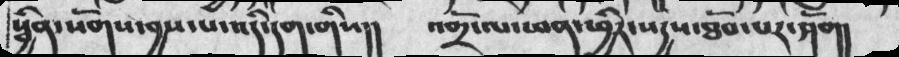སྦྱིན་སོགས་བྱས་པ་འདི་དག་གིས།།   འགྲོ་ལ་ཕན་ཕྱིར་སདྱས་ཐོབ་པར་ཤོག།
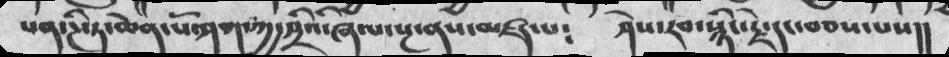པན་ཌི་ཏ་ཆེན་པོ་ཤག་ཀྱ་ཤྲིའི་ཞལ་སྔ་ནས་མཛད་པ༴  ཤེས་རབ་སྙིང་རྗེ་དང་བཅས་པས།།
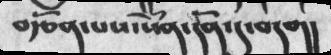བརྩོན་པས་སེཾན་དོན་དུ་བདག།
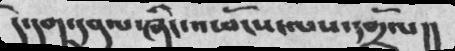དེ་དག་དབུལ་ཞིང་འཕོངས་ལས་དགྲོལ།།
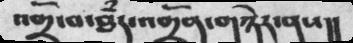འགྲོ་བ་ཐཾད་འགྲོན་གཉེར་ནས།།
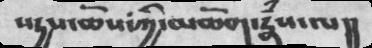སདྱས་ཆོས་ཀྱི་མཆོག་རྣཾས་ལ།།
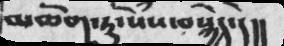མཆོག་ཏུ་སེཾས་བསྐྱེད་དེ།།
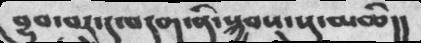བྱུབ་བར་དུ་བདག་ནི་སྐྱབས་སུ་མཆི།།
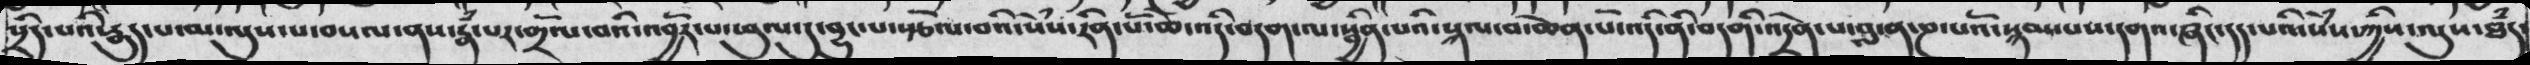སྲིད་པའི་རྒུད་པ་མ་ལུས་པ་བསལ་ནས་རྣཾ་པར་གྲོལ་བའི་འབྱོར་པ་ཕུལ་དུ་བྱུང་པ་སྩོལ་བའི་དེཾས་རིན་པོ་ཆེ་འདི་བདག་ལ་སྦྱིན་པའི་སྐལ་བ་ཆེན་པོ་འདི་ནི་བདགི་འདྲེན་པ་བླ་ན་ཎ་པའོ་སྙམས་པས་དགའ་ཞིང་དད་པའི་སེཾས་ཀྱིས་ལུས་ཐཾད་
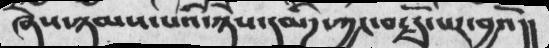ཞེས་ཉམས་པའི་ཉེས་དམིཌ་ཀྱང་བརྗོད་པར་བྱའོ།།
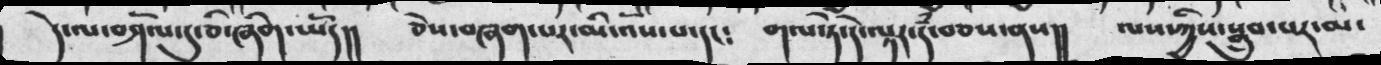དེ་ལ་བཤོལ་དུ་ཅི་ཞིག་ཡོད།།  ཅེས་བཞག་པར་མི་འོས་པ་དང༴  གལ་ཏེ་དེ་ལྟར་རཾ་བཅས་ནས།། ལས་ཀྱིས་སྒྲུབ་པར་མ་
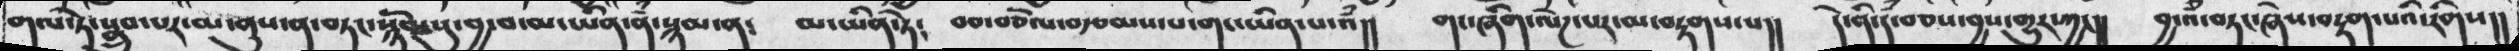གལ་ཏེ་སྒྲུབ་པར་མ་ནུས་ན་བཏང་སྙོམསུ་བྱ་བ་མ་ཡིན་ནོ་སྙམ་ན༴  མི་ཡིན་ཏེ༴  བབ་བཅོལ་བརྩམས་པ་གང་ཡིན་པ་འཾ།།  གང་ཞིག་ལེཌ་པར་མབརྟགས་པ།།  དེ་ནི་དཾ་བཅས་བྱས་གྱུར་ཀྱང།།  བྱ་འཾ་བཏང་ཞེས་བརྟག་པའི་རིགས།།
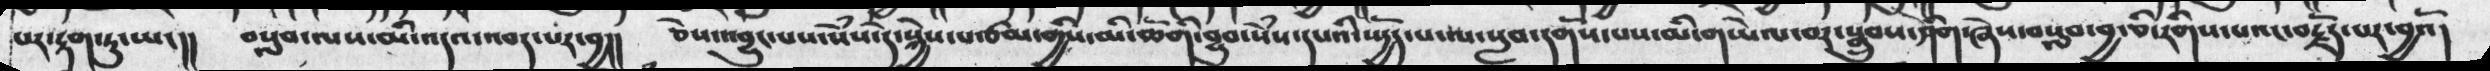པར་རྟག་ཏུ་ཡང།།  བསླབ་ལས་མི་འདའ་འབད་པར་བྱ།།  ཅེས་འབྱུང་པས་སེཾས་དེ་སྐྱེས་པ་ཙམ་གྱིས་མི་ཆོགི་བྱུབ་སེཾས་དཔའི་སྤྱོད་པ་ལ་སླབ་དགོས་པས་མི་གཡེལ་བར་སྒྲུབས་ཤིག་ཞེས་བསླབ་བྱ་ཅི་རིགས་པའང་བརྗོད་པར་བྱའོ།
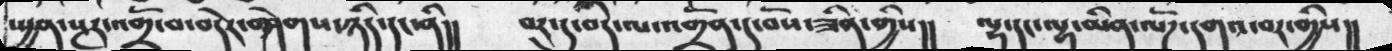སྤྱན་སྔར་འགྲོ་བ་བདེར་གཤེགས་ཉིད་དང་ནི།།  བར་དུ་བདེ་ལ་འགྲོན་དུ་བོས་ཟིན་གྱིས།།  ལྷ་དང་ལྷ་མིན་ལོཌ་དགའ་བར་གྱིས།།
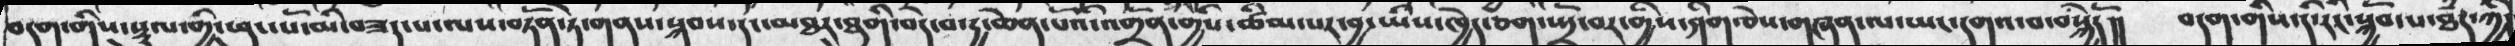བདག་གིས་སྡུལ་གྱི་ཕུང་པོ་མི་བཟད་པ་ལས་བཏོན་ཏེ་གནས་སྐབས་དང་མཐར་ཐུགི་བདེ་བ་དྱ་ཆེན་པོའི་འགྲོན་གྱིས་ཚིམ་པར་བྱ་ཡིས་ཁྱེད་ཅག་སྤྲོ་བར་གྱིས་ཤིག་ཅེས་གཞན་ལ་ཡང་དགའ་བ་བསྐྱེདོ།།  བདག་གིས་དེ་རིང་སྐྱོབ་པ་ཐཾད་ཀྱི
